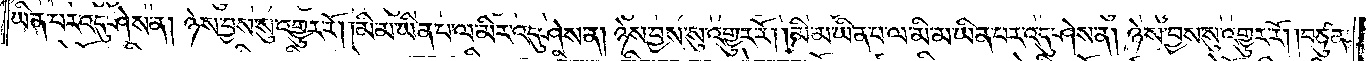ཡིན་པར་འདུ་ཤེས་ན། ཉེས་བྱས་སུ་འགྱུར་རོ། །མི་མ་ཡིན་པ་ལ་མིར་འདུ་ཤེས་ན། ཉེས་བྱས་སུ་འགྱུར་རོ། །མི་མ་ཡིན་པ་ལ་མི་མ་ཡིན་པར་འདུ་ཤེས་ན། ཉེས་བྱས་སུ་འགྱུར་རོ། །བཙུན་
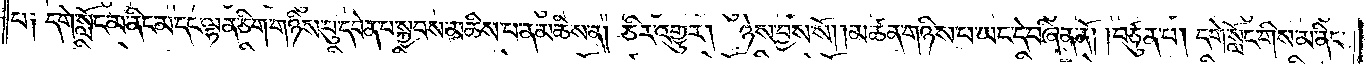པ། དགེ་སློང་མ་ནིང་མ་དང་ལྷན་ཅིག་གཉིས་པུ་དབེན་པ་སྐྱབས་མཆིས་པ་ན་མཆིས་ན། ཅིར་འགྱུར། ཉེས་བྱས་སོ། །མཚན་གཉིས་པ་ཡང་དེ་བཞིན་ནོ། །བཙུན་པ། དགེ་སློང་གིས་མ་ནིང་
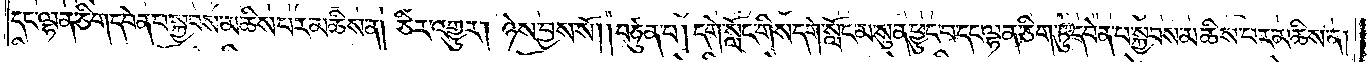དང་ལྷན་ཅིག་དབེན་པ་སྐྱབས་མཆིས་པར་མཆིས་ན། ཅིར་འགྱུར། ཉེས་བྱས་སོ། །བཙུན་པ། དགེ་སློང་གིས་དགེ་སློང་མ་སུན་ཕྱུང་བ་དང་ལྷན་ཅིག་ཏུ་དབེན་པ་སྐྱབས་མཆིས་པར་མཆིས་ན།
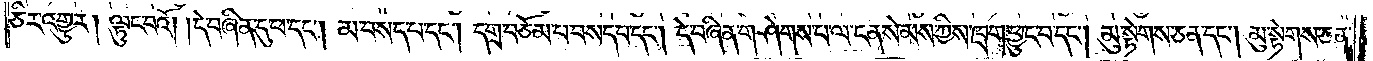ཅིར་འགྱུར། ལྟུང་བའོ། །དེ་བཞིན་དུ་ཕ་དང༌། མ་བསད་པ་དང༌། དགྲ་བཅོམ་པ་བསད་པ་དང༌། དེ་བཞིན་གཤེགས་པ་ལ་ངན་སེམས་ཀྱིས་ཁྲག་ཕྱུང་བ་དང༌། མུ་སྟེགས་ཅན་དང༌། མུ་སྟེགས་ཅན་
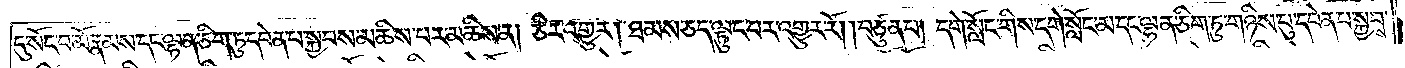དུ་སོང་བ་མོ་རྣམས་དང་ལྷན་ཅིག་ཏུ་དབེན་པ་སྐྱབས་མཆིས་པར་མཆིས་ན། ཅིར་འགྱུར། ཐམས་ཅད་ལྟུང་བར་འགྱུར་རོ། །བཙུན་པ། དགེ་སློང་གིས་དགེ་སློང་མ་དང་ལྷན་ཅིག་ཏུ་གཉིས་པུ་དབེན་པ་སྐྱབས་
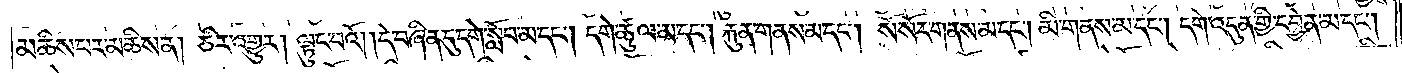མཆིས་པར་མཆིས་ན། ཅིར་འགྱུར། ལྟུང་བའོ། །དེ་བཞིན་དུ་དགེ་སློབ་མ་དང༌། དགེ་ཚུལ་མ་དང༌། རྐུན་གནས་མ་དང༌། སོ་སོར་གནས་མ་དང༌། མི་གནས་མ་དང༌། དགེ་འདུན་གྱི་དབྱེན་མ་དང༌།
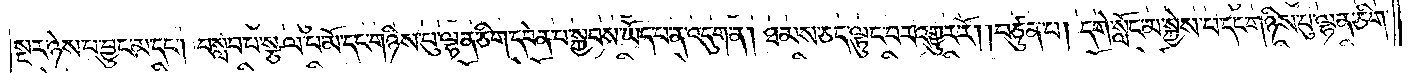སྔར་ཉེས་པ་བྱུང་མ་དང༌། བསླབ་པ་སྩལ་པ་མོ་དང་གཉིས་པུ་ལྷན་ཅིག་དབེན་པ་སྐྱབས་ཡོད་པ་ན་འདུག་ན། ཐམས་ཅད་ལྟུང་བར་འགྱུར་རོ། །བཙུན་པ། དགེ་སློང་མ་སྐྱེས་པ་དང་གཉིས་པུ་ལྷན་ཅིག་
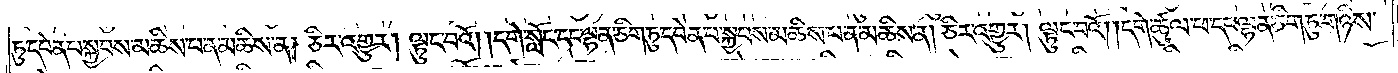ཏུ་དབེན་པ་སྐྱབས་མཆིས་པ་ན་མཆིས་ན། ཅིར་འགྱུར། ལྟུང་བའོ། །དགེ་སློང་དང་ལྷན་ཅིག་ཏུ་དབེན་པ་སྐྱབས་མཆིས་པ་ན་མཆིས་ན། ཅིར་འགྱུར། ལྟུང་བའོ། །དགེ་ཚུལ་ཕ་དང་ལྷན་ཅིག་ཏུ་གཉིས་
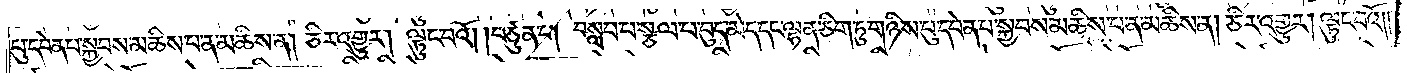པུ་དབེན་པ་སྐྱབས་མཆིས་པ་ན་མཆིས་ན། ཅིར་འགྱུར། ལྟུང་བའོ། །བཙུན་པ། བསླབ་པ་སྩལ་པ་བུད་མེད་དང་ལྷན་ཅིག་ཏུ་གཉིས་པུ་དབེན་པ་སྐྱབས་མཆིས་པ་ན་མཆིས་ན། ཅིར་འགྱུར། ལྟུང་བའོ༎
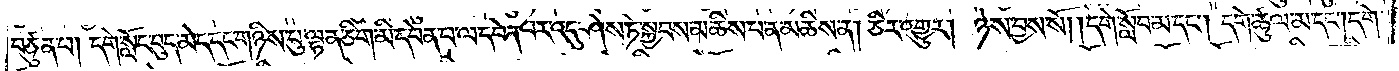བཙུན་པ། དགེ་སློང་བུད་མེད་དང་གཉིས་པུ་ལྷན་ཅིག་མི་དབེན་པ་ལ་དབེན་པར་འདུ་ཤེས་ཏེ་སྐྱབས་མཆིས་པ་ན་མཆིས་ན། ཅིར་འགྱུར། ཉེས་བྱས་སོ། །དགེ་སློབ་མ་དང༌། དགེ་ཚུལ་མ་དང༌། དགེ་
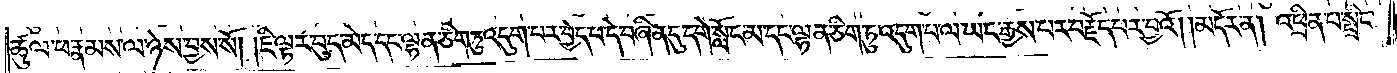ཚུལ་ཕ་རྣམས་ལ་ཉེས་བྱས་སོ། །ཇི་ལྟར་བུད་མེད་དང་ལྷན་ཅིག་ཏུ་འདུག་པར་བྱེད་པ་དེ་བཞིན་དུ་དགེ་སློང་མ་དང་ལྷན་ཅིག་ཏུ་འདུག་པ་ལ་ཡང་རྒྱས་པར་བརྗོད་པར་བྱའོ།    །མདོར་ན། འཕྲིན་པ་སྤྲིང་
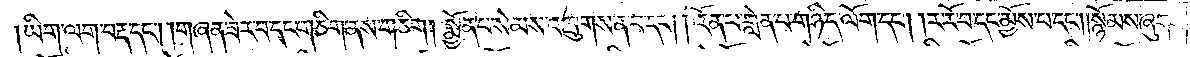ཡིག་ལག་བརྡ་དང༌། །གཞན་ཟེར་བ་དང་གཅིག་ནས་གཅིག། སྨྱོན་པ་སེམས་འཁྲུགས་ན་བ་དང༌། །འོན་པ་གླེན་པ་གཉིད་ལོག་དང༌། །ར་རོ་བ་དང་མྱོས་པ་དང༌། །སྙོམས་ཞུགས་
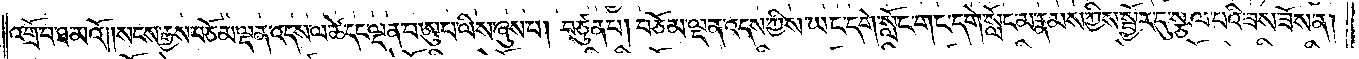འགྲོ་བ་ཐ་མའོ། །སངས་རྒྱས་བཅོམ་ལྡན་འདས་ལ་ཚེ་དང་ལྡན་པ་ཨུ་པ་ལིས་ཞུས་པ། བཙུན་པ། བཅོམ་ལྡན་འདས་ཀྱིས་ཡང་དགེ་སློང་གང་དགེ་སློང་མ་རྣམས་ཀྱིས་སྦྱོར་དུ་སྩལ་པའི་ཟས་ཟོས་ན།
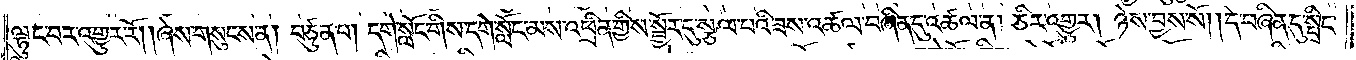ལྟུང་བར་འགྱུར་རོ། །ཞེས་གསུངས་ན། བཙུན་པ། དགེ་སློང་གིས་དགེ་སློང་མས་འཕྲིན་གྱིས་སྦྱོར་དུ་སྩལ་པའི་ཟས་འཚལ་བཞིན་དུ་འཚལ་ན། ཅིར་འགྱུར། ཉེས་བྱས་སོ། །དེ་བཞིན་དུ་སྤྲིང་
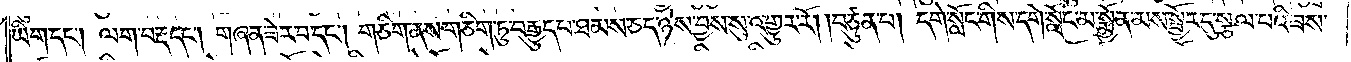ཡིག་དང༌། ལག་བརྡ་དང༌། གཞན་ཟེར་བ་དང༌། གཅིག་ནས་གཅིག་ཏུ་བརྒྱུད་པ་ཐམས་ཅད་ཉེས་བྱས་སུ་འགྱུར་རོ། །བཙུན་པ། དགེ་སློང་གིས་དགེ་སློང་མ་སྨྱོན་མས་སྦྱོར་དུ་སྩལ་པའི་ཟས་
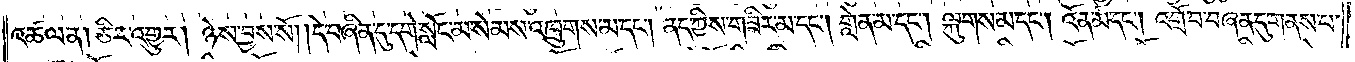འཚལ་ན། ཅིར་འགྱུར། ཉེས་བྱས་སོ། །དེ་བཞིན་དུ་དགེ་སློང་མ་སེམས་འཁྲུགས་མ་དང༌། ནད་ཀྱིས་གཟིར་མ་དང༌། གླེན་མ་དང༌། ལྐུགས་མ་དང༌། འོན་མ་དང༌། འགྲོ་བ་གཞན་དུ་གནས་པ་
